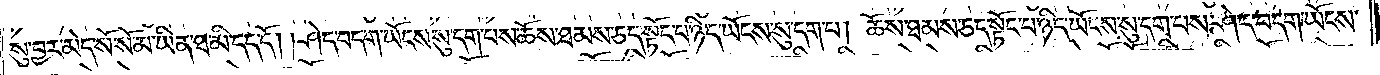སུ་བྱར་མེད་སོ་སོ་མ་ཡིན་ཐ་མི་དད་དོ། །ཤེད་བདག་ཡོངས་སུ་དག་པས་ཆོས་ཐམས་ཅད་སྟོང་པ་ཉིད་ཡོངས་སུ་དག་པ། ཆོས་ཐམས་ཅད་སྟོང་པ་ཉིད་ཡོངས་སུ་དག་པས་ཤེད་བདག་ཡོངས་
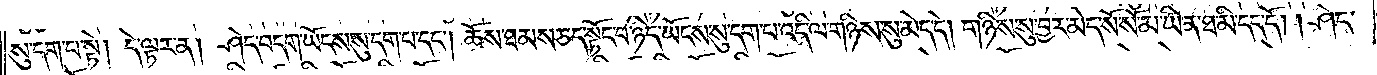སུ་དག་པ་སྟེ། དེ་ལྟར་ན། ཤེད་བདག་ཡོངས་སུ་དག་པ་དང༌། ཆོས་ཐམས་ཅད་སྟོང་པ་ཉིད་ཡོངས་སུ་དག་པ་འདི་ལ་གཉིས་སུ་མེད་དེ། གཉིས་སུ་བྱར་མེད་སོ་སོ་མ་ཡིན་ཐ་མི་དད་དོ། །ཤེད་
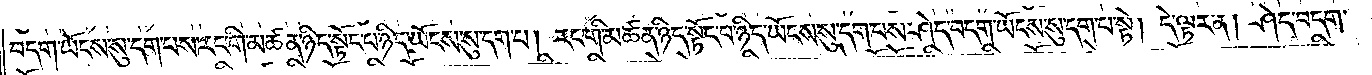བདག་ཡོངས་སུ་དག་པས་རང་གི་མཚན་ཉིད་སྟོང་པ་ཉིད་ཡོངས་སུ་དག་པ། རང་གི་མཚན་ཉིད་སྟོང་པ་ཉིད་ཡོངས་སུ་དག་པས་ཤེད་བདག་ཡོངས་སུ་དག་པ་སྟེ། དེ་ལྟར་ན། ཤེད་བདག་
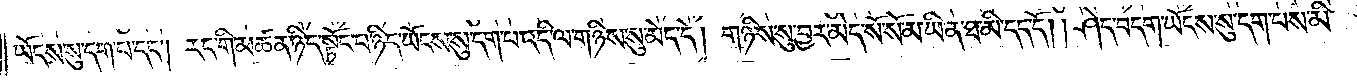ཡོངས་སུ་དག་པ་དང༌། རང་གི་མཚན་ཉིད་སྟོང་པ་ཉིད་ཡོངས་སུ་དག་པ་འདི་ལ་གཉིས་སུ་མེད་དེ། གཉིས་སུ་བྱར་མེད་སོ་སོ་མ་ཡིན་ཐ་མི་དད་དོ། །ཤེད་བདག་ཡོངས་སུ་དག་པས་མི་
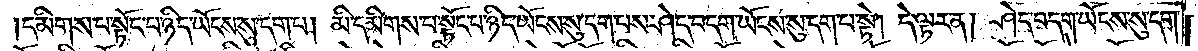དམིགས་པ་སྟོང་པ་ཉིད་ཡོངས་སུ་དག་པ། མི་དམིགས་པ་སྟོང་པ་ཉིད་ཡོངས་སུ་དག་པས་ཤེད་བདག་ཡོངས་སུ་དག་པ་སྟེ། དེ་ལྟར་ན། ཤེད་བདག་ཡོངས་སུ་དག་
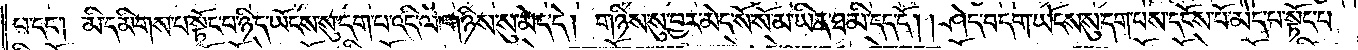པ་དང༌། མི་དམིགས་པ་སྟོང་པ་ཉིད་ཡོངས་སུ་དག་པ་འདི་ལ་གཉིས་སུ་མེད་དེ། གཉིས་སུ་བྱར་མེད་སོ་སོ་མ་ཡིན་ཐ་མི་དད་དོ། །ཤེད་བདག་ཡོངས་སུ་དག་པས་དངོས་པོ་མེད་པ་སྟོང་པ་
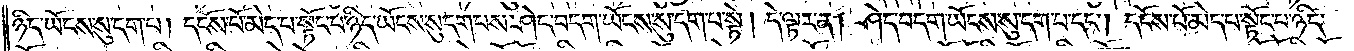ཉིད་ཡོངས་སུ་དག་པ། དངོས་པོ་མེད་པ་སྟོང་པ་ཉིད་ཡོངས་སུ་དག་པས་ཤེད་བདག་ཡོངས་སུ་དག་པ་སྟེ། དེ་ལྟར་ན། ཤེད་བདག་ཡོངས་སུ་དག་པ་དང༌། དངོས་པོ་མེད་པ་སྟོང་པ་ཉིད་
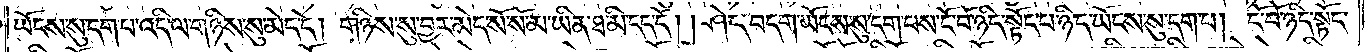ཡོངས་སུ་དག་པ་འདི་ལ་གཉིས་སུ་མེད་དེ། གཉིས་སུ་བྱར་མེད་སོ་སོ་མ་ཡིན་ཐ་མི་དད་དོ། །ཤེད་བདག་ཡོངས་སུ་དག་པས་ངོ་བོ་ཉིད་སྟོང་པ་ཉིད་ཡོངས་སུ་དག་པ། ངོ་བོ་ཉིད་སྟོང་
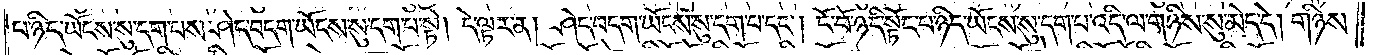པ་ཉིད་ཡོངས་སུ་དག་པས་ཤེད་བདག་ཡོངས་སུ་དག་པ་སྟེ། དེ་ལྟར་ན། ཤེད་བདག་ཡོངས་སུ་དག་པ་དང༌། ངོ་བོ་ཉིད་སྟོང་པ་ཉིད་ཡོངས་སུ་དག་པ་འདི་ལ་གཉིས་སུ་མེད་དེ། གཉིས་
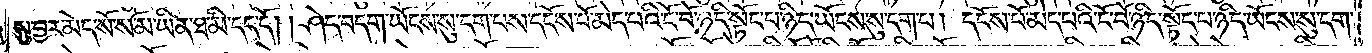སུ་བྱར་མེད་སོ་སོ་མ་ཡིན་ཐ་མི་དད་དོ། །ཤེད་བདག་ཡོངས་སུ་དག་པས་དངོས་པོ་མེད་པའི་ངོ་བོ་ཉིད་སྟོང་པ་ཉིད་ཡོངས་སུ་དག་པ། དངོས་པོ་མེད་པའི་ངོ་བོ་ཉིད་སྟོང་པ་ཉིད་ཡོངས་སུ་དག་
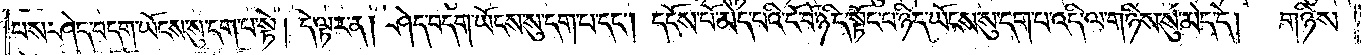པས་ཤེད་བདག་ཡོངས་སུ་དག་པ་སྟེ། དེ་ལྟར་ན། ཤེད་བདག་ཡོངས་སུ་དག་པ་དང༌། དངོས་པོ་མེད་པའི་ངོ་བོ་ཉིད་སྟོང་པ་ཉིད་ཡོངས་སུ་དག་པ་འདི་ལ་གཉིས་སུ་མེད་དེ། གཉིས་
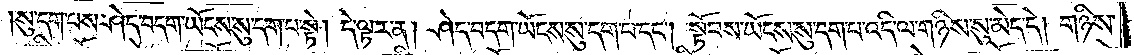སུ་དག་པས་ཤེད་བདག་ཡོངས་སུ་དག་པ་སྟེ། དེ་ལྟར་ན། ཤེད་བདག་ཡོངས་སུ་དག་པ་དང༌། སྟོབས་ཡོངས་སུ་དག་པ་འདི་ལ་གཉིས་སུ་མེད་དེ། གཉིས་
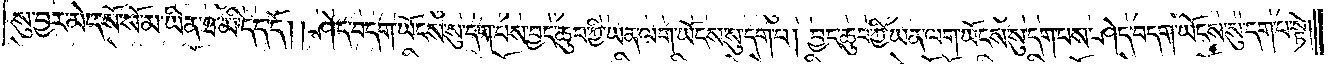སུ་བྱར་མེད་སོ་སོ་མ་ཡིན་ཐ་མི་དད་དོ། །ཤེད་བདག་ཡོངས་སུ་དག་པས་བྱང་ཆུབ་ཀྱི་ཡན་ལག་ཡོངས་སུ་དག་པ། བྱང་ཆུབ་ཀྱི་ཡན་ལག་ཡོངས་སུ་དག་པས་ཤེད་བདག་ཡོངས་སུ་དག་པ་སྟེ།
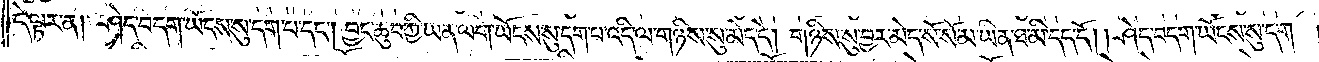དེ་ལྟར་ན། ཤེད་བདག་ཡོངས་སུ་དག་པ་དང༌། བྱང་ཆུབ་ཀྱི་ཡན་ལག་ཡོངས་སུ་དག་པ་འདི་ལ་གཉིས་སུ་མེད་དེ། གཉིས་སུ་བྱར་མེད་སོ་སོ་མ་ཡིན་ཐ་མི་དད་དོ། །ཤེད་བདག་ཡོངས་སུ་དག་
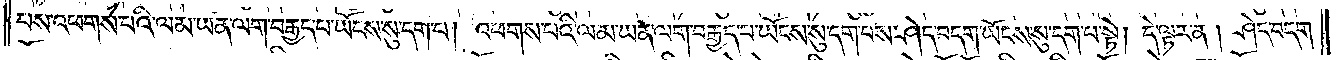པས་འཕགས་པའི་ལམ་ཡན་ལག་བརྒྱད་པ་ཡོངས་སུ་དག་པ། འཕགས་པའི་ལམ་ཡན་ལག་བརྒྱད་པ་ཡོངས་སུ་དག་པས་ཤེད་བདག་ཡོངས་སུ་དག་པ་སྟེ། དེ་ལྟར་ན། ཤེད་བདག་
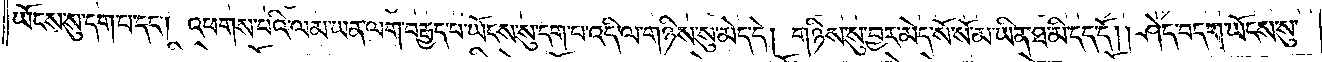ཡོངས་སུ་དག་པ་དང༌། འཕགས་པའི་ལམ་ཡན་ལག་བརྒྱད་པ་ཡོངས་སུ་དག་པ་འདི་ལ་གཉིས་སུ་མེད་དེ། གཉིས་སུ་བྱར་མེད་སོ་སོ་མ་ཡིན་ཐ་མི་དད་དོ། །ཤེད་བདག་ཡོངས་སུ་
